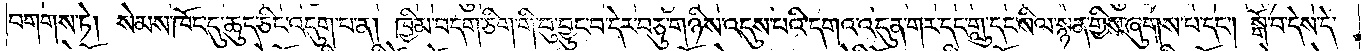བགགས་ཏེ། སེམས་ཁོང་དུ་ཆུད་ཅིང་འདུག་པ་ན། ཁྱིམ་བདག་ཅིག་གི་བུ་བྱུང་བ་དེར་བཅུ་གཉིས་འདུས་པའི་དགའ་འདུན་གར་དང་གླུ་དང་སིལ་སྙན་གྱིས་ཞུགས་པ་དང༌། སྒོ་བ་དེས་དེ་
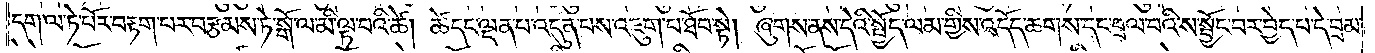དག་ལ་ཏེ་པོར་བརྟག་པར་བརྩམས་ཏེ་སྒོ་ལ་མི་ལྟ་བའི་ཚེ། ཚེ་དང་ལྡན་པ་འདུན་པས་འཇུག་པ་ཐོབ་སྟེ། ཞུགས་ནས་དེའི་སྤྱོད་ལམ་གྱིས་འདོད་ཆགས་དང་བྲལ་བའི་ས་སྦྱོང་བར་བྱེད་པ་དེ་བྲམ་
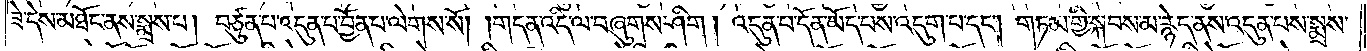ཟེ་དེས་མཐོང་ནས་སྨྲས་པ། བཙུན་པ་འདུན་པ་བྱོན་པ་ལེགས་སོ། །གདན་འདི་ལ་བཞུགས་ཤིག །འདུན་པ་དོན་ཡོད་པས་འདུག་པ་དང༌། གཏམ་གྱི་སྐབས་མ་རྙེད་ནས་འདུན་པས་སྨྲས་
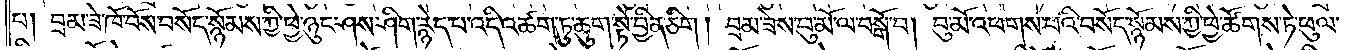པ། བྲམ་ཟེ་ཁོ་བོས་བསོད་སྙོམས་ཀྱི་ཕྱེ་ཉུང་ཤས་ཤིག་རྙེད་པ་འདི་འཚག་ཏུ་ཆུག་སྟེ་བྱིན་ཅིག །བྲམ་ཟེས་བུ་མོ་ལ་བསྒོ་བ། བུ་མོ་འཕགས་པའི་བསོད་སྙོམས་ཀྱི་ཕྱེ་ཚོགས་ཏེ་ཕུལ་
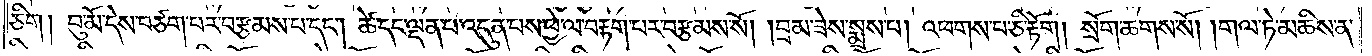ཅིག །བུ་མོ་དེས་བཙག་པར་བརྩམས་པ་དང༌། ཚེ་དང་ལྡན་པ་འདུན་པས་ཕྱེ་ལ་བརྟག་པར་བརྩམས་སོ། །བྲམ་ཟེས་སྨྲས་པ། འཕགས་པ་ཅི་རྟོག །སྲོག་ཆགས་སོ། །གལ་ཏེ་མཆིས་ན་
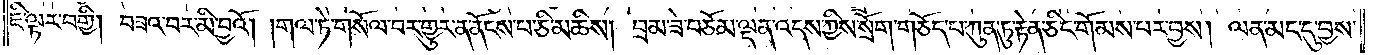ཇི་ལྟར་བགྱི། བཟའ་བར་མི་བྱའོ། །གལ་ཏེ་གསོལ་བར་གྱུར་ན་ནོངས་པ་ཅི་མཆིས། བྲམ་ཟེ་བཅོམ་ལྡན་འདས་ཀྱིས་སྲོག་གཅོད་པ་ཀུན་ཏུ་རྟེན་ཅིང་གོམས་པར་བྱས། ལན་མང་དུ་བྱས་
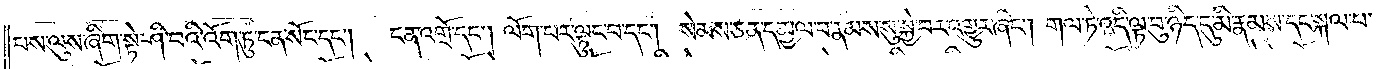པས་ལུས་ཞིག་སྟེ་ཤི་བའི་འོག་ཏུ་ངན་སོང་དང༌།  ངན་འགྲོ་དང༌། ལོག་པར་ལྟུང་བ་དང༌། སེམས་ཅན་དམྱལ་བ་རྣམས་སུ་སྐྱེ་བར་འགྱུར་ཞིང༌། གལ་ཏེ་འདི་ལྟ་བུ་ཉིད་དུ་མི་རྣམས་དང་སྐལ་པ་
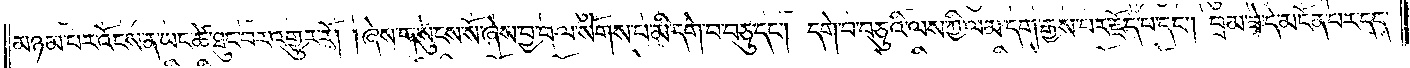མཉམ་པར་འོངས་ན་ཡང་ཚེ་ཐུང་བར་འགྱུར་རོ། །ཞེས་གསུངས་སོ་ཞེས་བྱ་བ་ལ་སོགས་པ་མི་དགེ་བ་བཅུ་དང༌། དགེ་བ་བཅུའི་ལས་ཀྱི་ལམ་དག་རྒྱས་པར་རྗོད་པ་དང༌། བྲམ་ཟེ་དེ་མངོན་པར་དད་
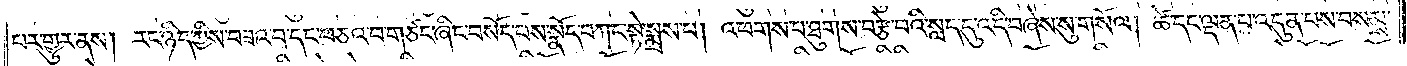པར་གྱུར་ནས། རང་ཉིད་ཀྱིས་བཟའ་བ་དང་བཅའ་བ་གཙང་ཞིང་བསོད་པས་སྣོད་བཀང་སྟེ་སྨྲས་པ། འཕགས་པ་ཐུགས་བརྩེ་བའི་སླད་དུ་འདི་བཞེས་སུ་གསོལ། ཚེ་དང་ལྡན་པ་འདུན་པས་བསམས་
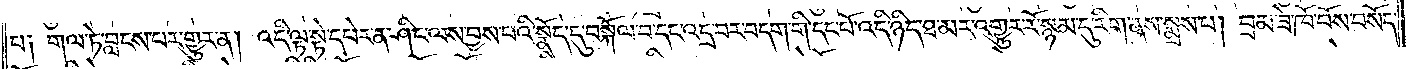པ༑ གལ་ཏེ་བླངས་པར་གྱུར་ན། འདི་ལྟ་སྟེ་དཔེར་ན་ཤིང་ལས་བྱས་པའི་སྣོད་དུ་བསྐོལ་བ་དང་འདྲ་བར་བདག་གི་དང་པོ་འདི་ཉིད་ཐ་མར་འགྱུར་རོ་སྙམ་དུ་རིག་ནས་སྨྲས་པ། བྲམ་ཟེ་ཁོ་བོས་བསོད་
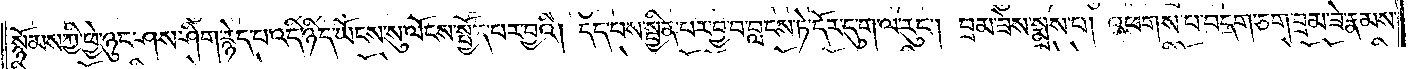སྙོམས་ཀྱི་ཕྱེ་ཉུང་ཤས་ཤིག་རྙེད་པ་འདི་ཉིད་ཡོངས་སུ་ལོངས་སྤྱོད་པར་བྱའི། །དད་པས་སྦྱིན་པར་བྱ་བ་བླངས་ཏེ་དོར་དུ་ག་ལ་རུང༌། བྲམ་ཟེས་སྨྲས་པ། འཕགས་པ་བདག་ཅག་བྲམ་ཟེ་རྣམས་
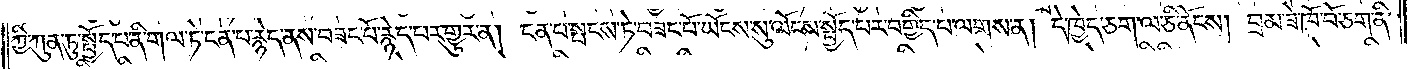ཀྱི་ཀུན་ཏུ་སྤྱོད་པ་ནི་གལ་ཏེ་ངན་པ་རྙེད་ནས་བཟང་པོ་རྙེད་པར་གྱུར་ན། ངན་པ་སྤངས་ཏེ་བཟང་པོ་ཡོངས་སུ་ལོངས་སྤྱོད་པར་བགྱིད་པ་ལགས་ན། དེ་ཁྱེད་ཅག་ལ་ཅི་ནོངས། བྲམ་ཟེ་ཁོ་བོ་ཅག་ནི་
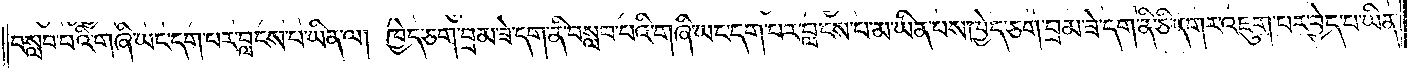བསླབ་པའི་གཞི་ཡང་དག་པར་བླངས་པ་ཡིན་ལ། ཁྱེད་ཅག་བྲམ་ཟེ་དག་ནི་བསླབ་པའི་གཞི་ཡང་དག་པར་བླངས་པ་མ་ཡིན་པས་ཁྱེད་ཅག་བྲམ་ཟེ་དག་ནི་ཅི་དགར་འཇུག་པར་བྱེད་པ་ཡིན་
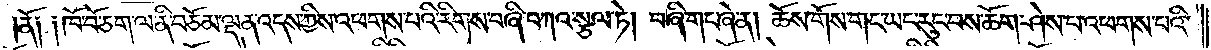།ནོ༑ ༑ཁོ་བོ་ཅག་ལ་ནི་བཅོམ་ལྡན་འདས་ཀྱིས་འཕགས་པའི་རིགས་བཞི་བཀའ་སྩལ་ཏེ། བཞི་གང་ཞེ་ན། ཆོས་གོས་གང་ཡང་རུང་བས་ཆོག་ཤེས་པ་འཕགས་པའི་
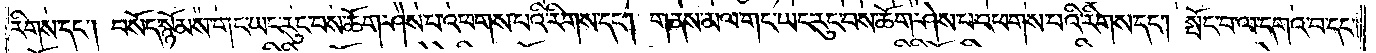རིགས་དང༌། བསོད་སྙོམས་གང་ཡང་རུང་བས་ཆོག་ཤེས་པ་འཕགས་པའི་རིགས་དང༌། གནས་མལ་གང་ཡང་རུང་བས་ཆོག་ཤེས་པ་འཕགས་པའི་རིགས་དང༌། སྦོང་བ་ལ་དགའ་བ་དང༌།
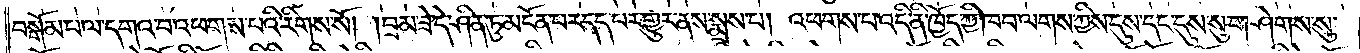བསྒོམ་པ་ལ་དགའ་བ་འཕགས་པའི་རིགས་སོ། །བྲམ་ཟེ་དེ་ཤིན་ཏུ་མངོན་པར་དད་པར་གྱུར་ནས་སྨྲས་པ། འཕགས་པ་འདི་ནི་ཁྱོད་ཀྱི་ཁབ་ལགས་ཀྱིས་དུས་དང་དུས་སུ་གཤེགས་སུ་
